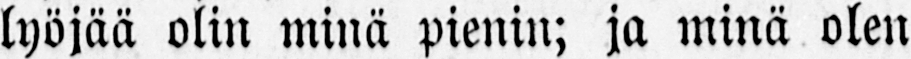lyöjää olin minä pienin; ja minä olen
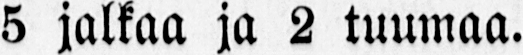5 jalkaa ja 2 tuumaa.
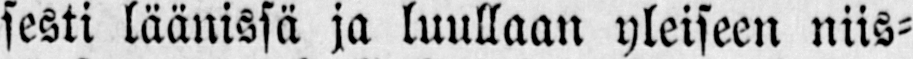sesti läänissä ja luullaan yleiseen niis-
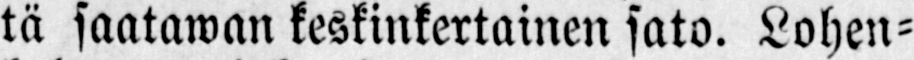tä säätäwän keskinkertainen sato. Lohen-
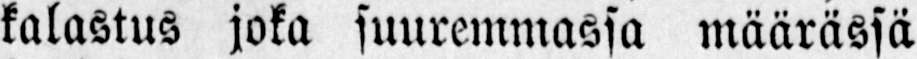kalastus joka suuremmassa määrässä
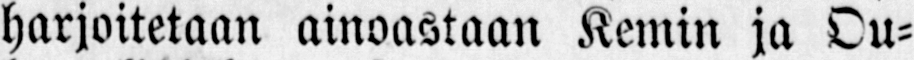harjoitetaan ainoastaan Kemin ja Ou-
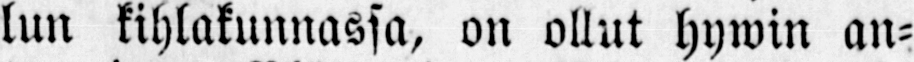lun kihlakunnassa, on ollut hywin an-
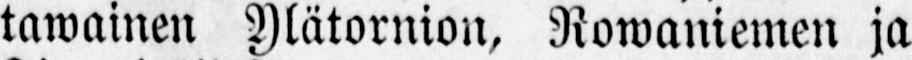tawainen Ylätornion, Rowaniemen ja
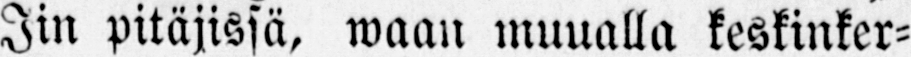Iin pitäjissä, waan muualla keskinker-
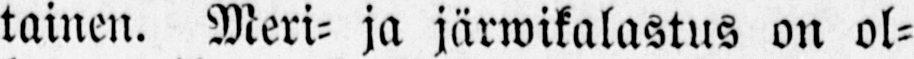tainen. Meri- ja järwikalastus on ol-
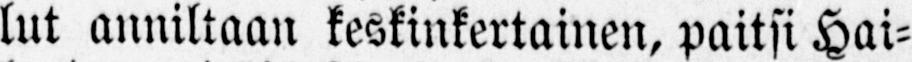lut anniltaan keskinkertainen, paitsi Hai-
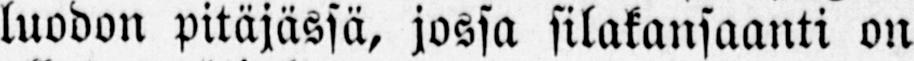luodon pitäjässä, jossa silakansaanti on
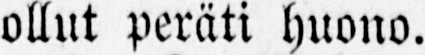ollut peräti huono.
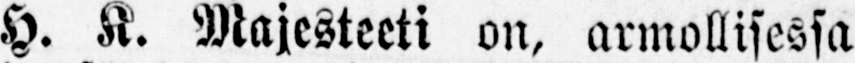H. K. Majesteeti on, armollisessa
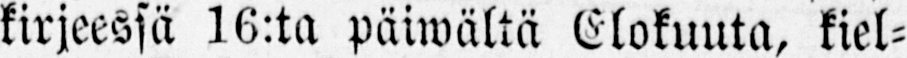kirjeessä 16:ta päiwältä Elokuuta, kiel-
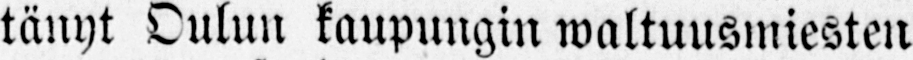tänyt Oulun kaupungin waltuusmiesten
